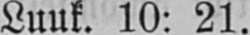Luuk. 10: 21.
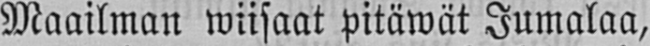Maailman wiisaat pitäwät Jumalaa,
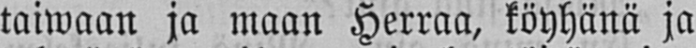taiwaan ja maan Herraa, köyhänä ja
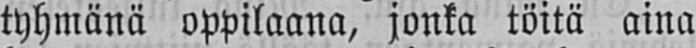tyhmänä oppilaana, jonka töitä aina
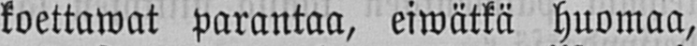koettawat parantaa, eiwätkä huomaa,
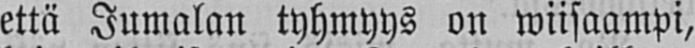että Jumalan tyhmyys on wiisaampi,
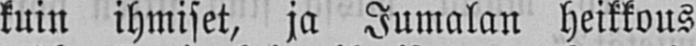kuin ihmiset, ja Jumalan heikkous
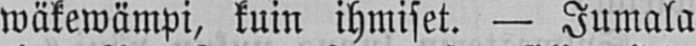wäkewämpi, kuin ihmiset. — Jumala
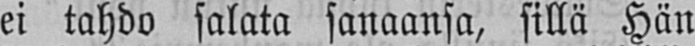ei tahdo salata sanaansa, sillä Hän
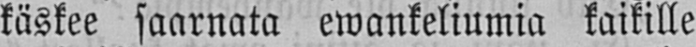käskee saarnata ewankeliumia kaikille
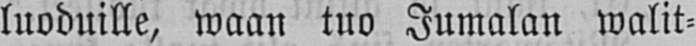luoduille, waan tuo Jumalan walit-
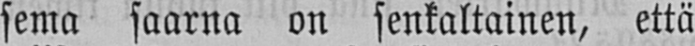sema saarna on senkaltainen, että
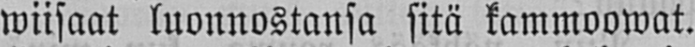wiisaat luonnostansa sitä kammoowat.
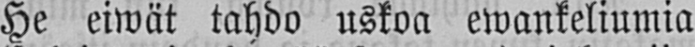He eiwät tahdo uskoa ewankeliumia
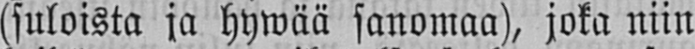(suloista ja hywää sanomaa), joka niin
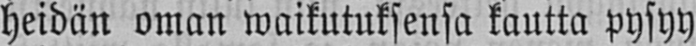heidän oman waikutuksensa kautta pysyy
